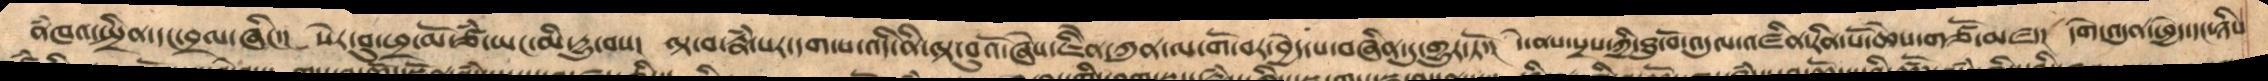ནཾཁའ་སྤྲིན་དང་བྲལ་ཞིང་།  སེར་བུ་ཕྲ་མོ་ཙཾ་ཡང་མི་དྱུ་བས།  ལྟ་བ་རྣཾ་པར་དག་པ་འདི་ནི་ལྟ་བུའོ་ཞེས་འཇིེན་ཀུན་ལ་གོ་བར་བྱེད་པ་བཞིན་དུ་གྱུར་ཏོ།  དེ་ནས་སྲས་ཀྱི་ཐུ་བོ་འདུལ་འཛིན་རིན་པོ་ཆེས་གཙོ་མཛད།  དགེ་འདུན་ཕྱེད་དང་ཉིས་
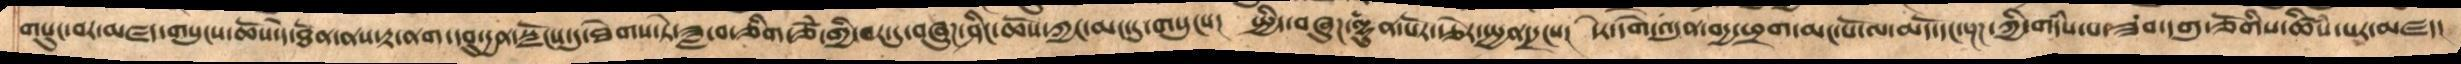གསུང་བར་མཛད་གསུངས་ཆོས་དེ་ཐོན་ནས་རྟ་ནག་དབུ་དྱན་སྫོངས་དུ་ཐེགས་ཏེ་ཟླ་བ་ཅིག་ཙཾ་གྱི་བར་དུ་བཞུཌ་ཤིང་ཆོས་ཀྱང་མང་དུ་གསུངས།  སྤྱིད་བཞུཌ་ལྷུན་པོར་རྩེར་སྤྱན་དྲངས།  དེར་དགེ་འདུན་བདྱ་ཕྲག་མང་པོ་ལ་མདོ་དང་སྔཌ་ཀྱི་གདཾས་པ་ཟབ་དགུ་ཅོགིས་ཚིསཾ་པར་མཛད།
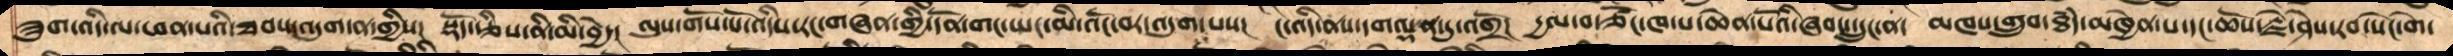ཟུག་འདི་ལ་ཕན་པའི་ཐབས་འདུག་ན་གྱིས།  སྡོད་རྩིས་ནི་མི་བྱེད།  ལུས་གོས་པོ་འདིས་རངགཞན་གྱི་དོན་གང་ཡང་མི་འོང་བར་འདུག་པས། ང་འདི་ནས་དགལྡན་དུ་འགྲོ།  དྱལ་བ་ཙོང་ཁ་པ་ཆེན་པོའི་ཞབས་དྲུང་ན།  མཁས་གྲུབ་ཐཾད་མཁྱེན་པ་དང་ཆོས་རྗེ་ཤེས་རབ་སེང་གེ་
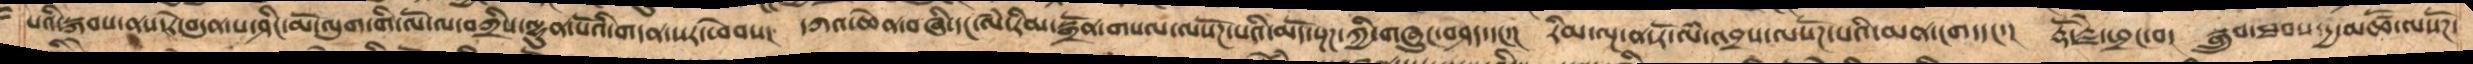པའིསྐབས་ནས་རེ་བདུན་པ་ཤིང་མོ་ལུག་གི་ལོ་ལ་བཀྲིས་ལྷུན་པོའི་གདན་སར་ཕེབས།  དཀའ་ཆེན་བཞི་དང་ལཾ་རིམ་སྒྲོན་གསལ་ལསོཌ་པའི་མདོ་སྔཌ་ཀྱི་གཞུང་བཤད་དང་།  རིམ་ལྔ་ན་རོ་ལཾ་འབྲས་ལསོཌ་པའི་མན་ངག་དང་།  རྡོ་རྗེ་ཕྲང་བ་  སྒྲུབ་ཐབས་དྱ་མཚོ་ལསོཌ་་
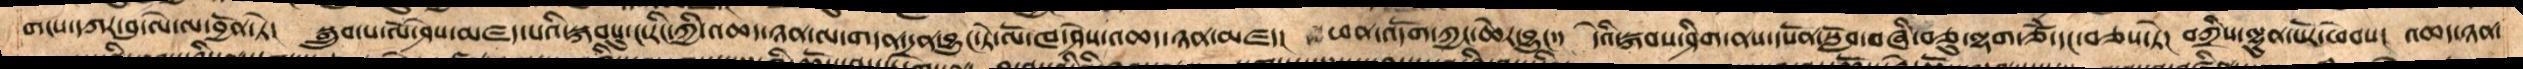གངས་དཀར་བུ་ལེ་ལ་བྱོན་ཏེ།  སྒྲུབ་པ་ལོ་ཤས་མཛད་པའི་སྐབསུ་ང་རིང་གི་འཆད་ཉན་ལ་གདན་དྲན་བྱུང་ཏེ་ལོ་ཁ་ཤེས་འཆད་ཉན་མཛད།  ཕན་འདོག་ཀྱང་ཆེར་བྱུང་།  དེའི་སྐབས་ཤིག་ནས་དཔོན་སློབ་བཞི་བཅུ་ལྷག་ཙཾ་དང་བཅས་ཏེ།  བཀྲིས་ལྷུན་པོར་ཕེབས།  འཆད་ཉན་
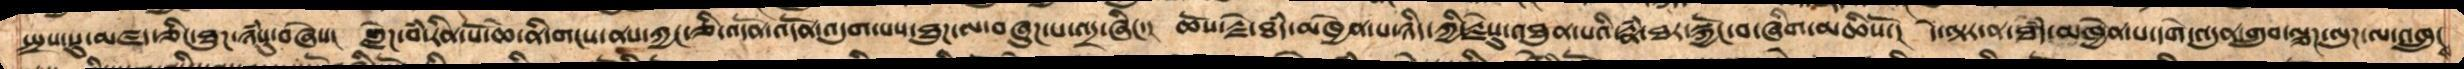སྤྲས་སུ་མཛད་ཅིང་ཐུཌ་ཉཾསུ་བཞེས།  གླེཌ་བཾ་རིན་པོ་ཆེ་ནི་གངས་ནས་ཀྱང་ཅི་འདོན་འདོན་འདུག་པས་ཐུཌ་ལ་བཞུཌ་པ་འདྲ་ཞིང་།  ཆོས་རྗེ་ཐཾད་མཁྱེན་པ་ཉིད་ཀྱི་རྗེསུ་འཐུན་པའི་རྣཾ་ཐར་སྐྱོང་བ་ཞིག་མཆིསོ།  དེ་ལྟར་ན་ཐཾད་མཁྱེན་པ་དགེ་འདུན་གྲུབ་ལྕཌ་ལུཌ་ལ་འཁྲུངས
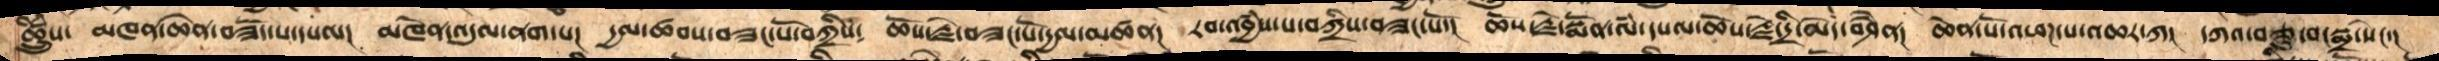ཚྲིུཾས།  མཁན་ཆེན་བཟོད་པ་དཔལ།  མཁེན་འདུལ་ནག་པ།  དྱལ་ཚབ་བཟང་པོ་བཀྲིས༴  ཆོས་རྗེ་བཟང་པོ་དྱལ་མཚན།  རབ་འབྱཾས་པ་བཀྲིས་བཟང་པོ།  ཆོས་རྗེ་སྨོན་ལཾ་དཔལ་ཆོས་རྗེ་དྲི་མེད་བཤཻན།  ཆེན་པོ་འཕཌ་པ་འཆར་ཀ།  དཀའ་བཅུ་བ་སྨྲ་སེང་།
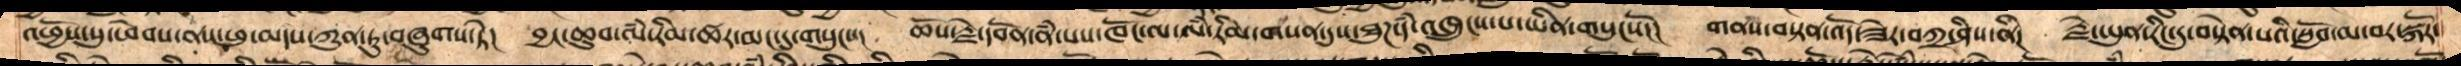འཕྱོས་སུ་ཕེབས་ནས་ཕུ་མདས་ཀུན་ཏུ་བཞུགས་ཏེ།  བྱང་ཆུབ་ལཾ་རིམ་ཚར་མང་དུ་གསུངས།  ཆོས་རྗེ་དབོན་ནཾ་པས་ཁོང་ལ་ལཾ་རིམ་གསན་དུས་ཐུཌ་དཾ་འཁྲུངས་པ་གསུངསོ།  གནས་བསྟན་འོད་ཟེར་བཀྲ་ཤིས་ནི།  རྗེ་ཡུན་རིང་དུ་བསྟེན་པའི་སློབ་མ་བར་སྐོར་
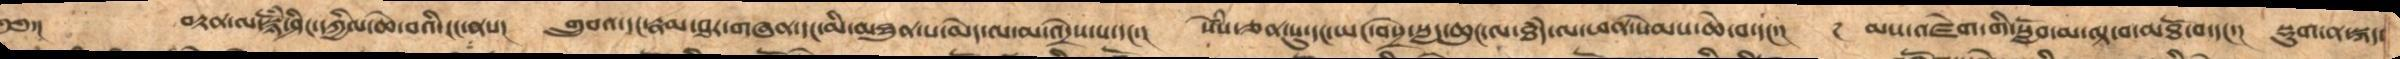༄༅་།     བརྟན་ལ་སྙོཾ་ཤིང་དཀྱིལ་ཆེ་བའི་ངང་ནས།  གྲུབའ་དང་རྣཾ་ཐར་གཞན་དང་མི་མཐུན་པ་མེད་ལ་མ་འདྲེས་པ་དང་།  སེསཾ་ཅན་སུ་དང་ཡང་བསྲེ་སླད་ཆུང་ལ་ཐཾད་ལ་ཕན་སེམས་ཆེ་བ་དང་།  རྔ མས་འཛེག་གི་སློབ་མ་ལྟ་བ་མཐོ་བ་དང་།  སྡུག་ན་སྐད་
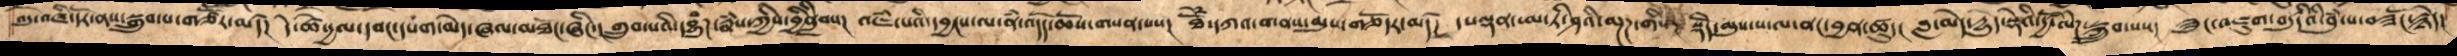འདུ་འཛི་དོར་ནས་སྒྲུབ་པ་གཙཽར་མཛད།  དེ་ཚེ་དྱལ་དབང་དཔག་མེད་ཞལ་མཐོང་ཞིང་།  གྲུབ་པའི་དབྱུཾཌ་རྣཾས་ཀྱིས་བྱིནླིབས།  འཇཾ་པའི་དབྱངས་ལ་ནཾ་འདོད་ཆོས་གསན་པས་།  ཐེ་ོཾདཀའ་གནས་མུས་གཅོདར་མཛད།  དཔལྡན་ཨ་ཏི་ཤའི་མྔཌ་གིས།  སྡེདོ་མུས་པ་ལ་ནང་བྱན་ཚུད།  བླ་མེད་དྱུད་སྡེའི་དྱཚོ་ལེཌ་སྐྲུབ་པས།  ཟུང་འཇུག་བདུདརྩི་བུཾ་པ་བཟངོ་རྙེད།
